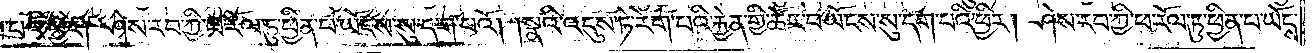དག་པའི་ཕྱིར། ཤེས་རབ་ཀྱི་ཕ་རོལ་ཏུ་ཕྱིན་པ་ཡོངས་སུ་དག་པའོ། །སྣའི་འདུས་ཏེ་རེག་པའི་རྐྱེན་གྱིས་ཚོར་བ་ཡོངས་སུ་དག་པའི་ཕྱིར། ཤེས་རབ་ཀྱི་ཕ་རོལ་ཏུ་ཕྱིན་པ་ཡོངས་
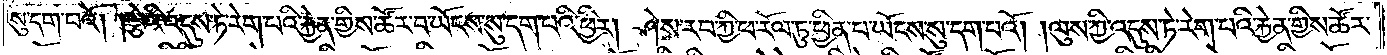སུ་དག་པའོ། །ལྕེའི་འདུས་ཏེ་རེག་པའི་རྐྱེན་གྱིས་ཚོར་བ་ཡོངས་སུ་དག་པའི་ཕྱིར། ཤེས་རབ་ཀྱི་ཕ་རོལ་ཏུ་ཕྱིན་པ་ཡོངས་སུ་དག་པའོ། །ལུས་ཀྱི་འདུས་ཏེ་རེག་པའི་རྐྱེན་གྱིས་ཚོར་
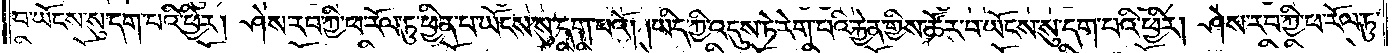བ་ཡོངས་སུ་དག་པའི་ཕྱིར། ཤེས་རབ་ཀྱི་ཕ་རོལ་ཏུ་ཕྱིན་པ་ཡོངས་སུ་དག་པའོ། །ཡིད་ཀྱི་འདུས་ཏེ་རེག་པའི་རྐྱེན་གྱིས་ཚོར་བ་ཡོངས་སུ་དག་པའི་ཕྱིར། ཤེས་རབ་ཀྱི་ཕ་རོལ་ཏུ་
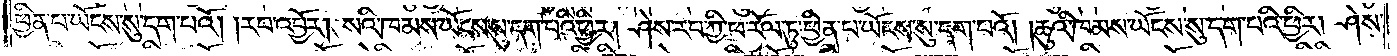ཕྱིན་པ་ཡོངས་སུ་དག་པའོ། །རབ་འབྱོར། སའི་ཁམས་ཡོངས་སུ་དག་པའི་ཕྱིར། ཤེས་རབ་ཀྱི་ཕ་རོལ་ཏུ་ཕྱིན་པ་ཡོངས་སུ་དག་པའོ། །ཆུའི་ཁམས་ཡོངས་སུ་དག་པའི་ཕྱིར། ཤེས་
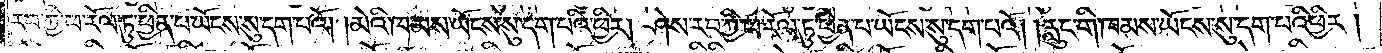རབ་ཀྱི་ཕ་རོལ་ཏུ་ཕྱིན་པ་ཡོངས་སུ་དག་པའོ། །མེའི་ཁམས་ཡོངས་སུ་དག་པའི་ཕྱིར། ཤེས་རབ་ཀྱི་ཕ་རོལ་ཏུ་ཕྱིན་པ་ཡོངས་སུ་དག་པའོ། །རླུང་གི་ཁམས་ཡོངས་སུ་དག་པའི་ཕྱིར།
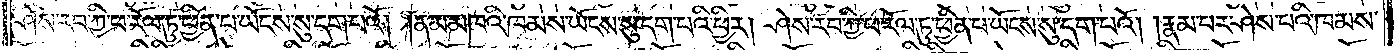ཤེས་རབ་ཀྱི་ཕ་རོལ་ཏུ་ཕྱིན་པ་ཡོངས་སུ་དག་པའོ། །ནམ་མཁའི་ཁམས་ཡོངས་སུ་དག་པའི་ཕྱིར། ཤེས་རབ་ཀྱི་ཕ་རོལ་ཏུ་ཕྱིན་པ་ཡོངས་སུ་དག་པའོ། །རྣམ་པར་ཤེས་པའི་ཁམས་
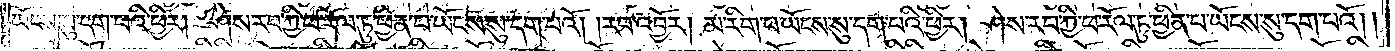ཡོངས་སུ་དག་པའི་ཕྱིར། ཤེས་རབ་ཀྱི་ཕ་རོལ་ཏུ་ཕྱིན་པ་ཡོངས་སུ་དག་པའོ། །རབ་འབྱོར། མ་རིག་པ་ཡོངས་སུ་དག་པའི་ཕྱིར། ཤེས་རབ་ཀྱི་ཕ་རོལ་ཏུ་ཕྱིན་པ་ཡོངས་སུ་དག་པའོ། །
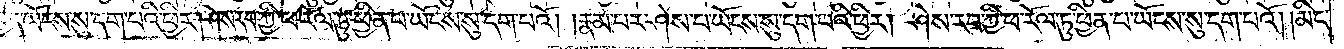འདུ་བྱེད་ཡོངས་སུ་དག་པའི་ཕྱིར། ཤེས་རབ་ཀྱི་ཕ་རོལ་ཏུ་ཕྱིན་པ་ཡོངས་སུ་དག་པའོ། །རྣམ་པར་ཤེས་པ་ཡོངས་སུ་དག་པའི་ཕྱིར། ཤེས་རབ་ཀྱི་ཕ་རོལ་ཏུ་ཕྱིན་པ་ཡོངས་སུ་དག་པའོ། །མིང་
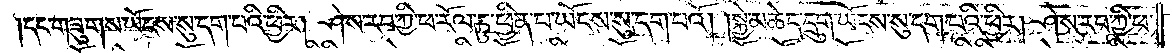དང་གཟུགས་ཡོངས་སུ་དག་པའི་ཕྱིར། ཤེས་རབ་ཀྱི་ཕ་རོལ་ཏུ་ཕྱིན་པ་ཡོངས་སུ་དག་པའོ། །སྐྱེ་མཆེད་དྲུག་ཡོངས་སུ་དག་པའི་ཕྱིར། ཤེས་རབ་ཀྱི་ཕ་
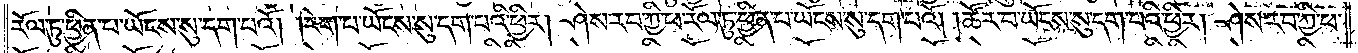རོལ་ཏུ་ཕྱིན་པ་ཡོངས་སུ་དག་པའོ། །རེག་པ་ཡོངས་སུ་དག་པའི་ཕྱིར། ཤེས་རབ་ཀྱི་ཕ་རོལ་ཏུ་ཕྱིན་པ་ཡོངས་སུ་དག་པའོ། །ཚོར་བ་ཡོངས་སུ་དག་པའི་ཕྱིར། ཤེས་རབ་ཀྱི་ཕ་
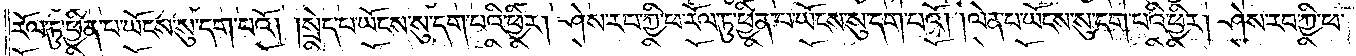རོལ་ཏུ་ཕྱིན་པ་ཡོངས་སུ་དག་པའོ། །སྲེད་པ་ཡོངས་སུ་དག་པའི་ཕྱིར། ཤེས་རབ་ཀྱི་ཕ་རོལ་ཏུ་ཕྱིན་པ་ཡོངས་སུ་དག་པའོ། །ལེན་པ་ཡོངས་སུ་དག་པའི་ཕྱིར། ཤེས་རབ་ཀྱི་ཕ་
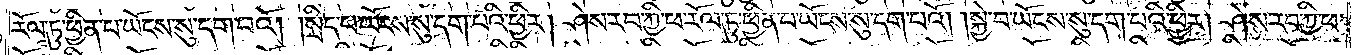རོལ་ཏུ་ཕྱིན་པ་ཡོངས་སུ་དག་པའོ། །སྲིད་པ་ཡོངས་སུ་དག་པའི་ཕྱིར། ཤེས་རབ་ཀྱི་ཕ་རོལ་ཏུ་ཕྱིན་པ་ཡོངས་སུ་དག་པའོ། །སྐྱེ་བ་ཡོངས་སུ་དག་པའི་ཕྱིར། ཤེས་རབ་ཀྱི་ཕ་
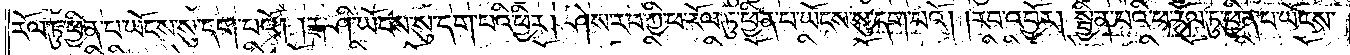རོལ་ཏུ་ཕྱིན་པ་ཡོངས་སུ་དག་པའོ། །རྒ་ཤི་ཡོངས་སུ་དག་པའི་ཕྱིར། ཤེས་རབ་ཀྱི་ཕ་རོལ་ཏུ་ཕྱིན་པ་ཡོངས་སུ་དག་པའོ། །རབ་འབྱོར། སྦྱིན་པའི་ཕ་རོལ་ཏུ་ཕྱིན་པ་ཡོངས་
